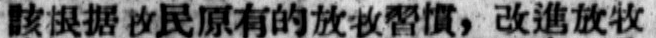該根據牧民原有的放牧習慣，改進放牧
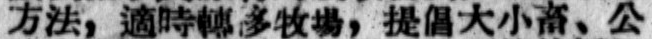方法，適時轉移牧場，提倡大小畜、公
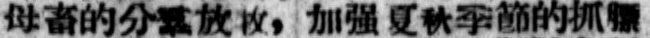母畜的分羣放牧，加強夏秋季節的抓膘
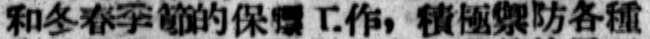和冬春季節的保膘工作，積極禦防各種
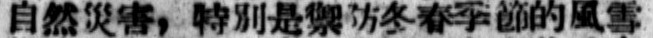自然災害，特別是禦防冬春季節的風雪
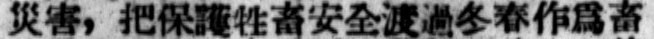災害，把保護牲畜安全渡過冬春作爲畜
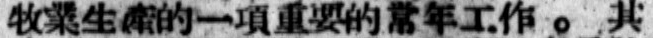牧業生產的一項重要的常年工作 。 其
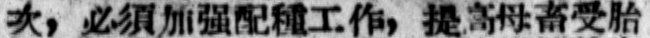次，必須加強配種工作，提高母畜受胎
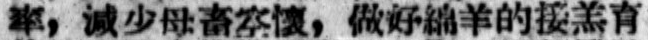率，減少母畜空懷，做好綿羊的接羔育
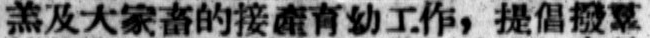羔及大家畜的接產育幼工作，提倡撥羣
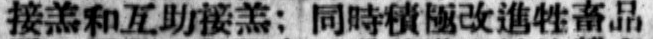接羔和互助接羔；同時積極改進牲畜品
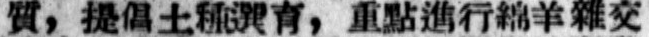質，提倡土種選育，重點進行綿羊雜交
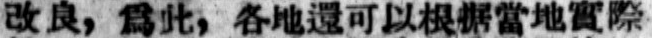改良，爲此，各地還可以根據當地實際
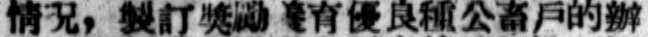情況，製定獎勵養育優良種公畜戶的辦
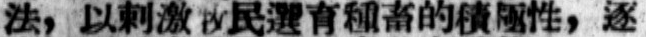法，以刺激牧民選育種畜的積極性，逐
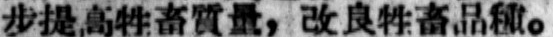步提高牲畜質量，改良牲畜品種。
